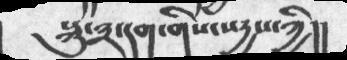སྐུ་༣་དག་གིས་སདྱས་ཀྱི།།
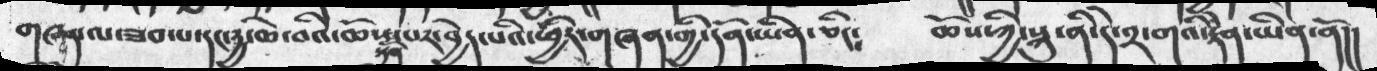གཞན་ལ་ཟབ་པ་དང་དྱ་ཆེ་བའི་ཆོས་སྟོན་པར་བྱེད་པའི་ཕྱིར་གཞན་གྱི་དོན་ཡིན་ཅིང༴   ཆོས་ཀྱི་སྐུ་ནི་དེ་༢་གའི་རྟེན་ཡིན་ནོ།།
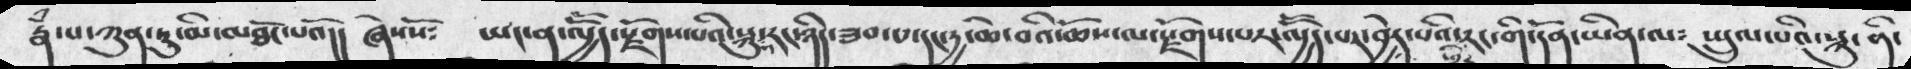རྣཾ་པ་ཀུན་ཏུ་མི་མཐོང་པའོ།།  ཞེསསོ༴  ཡང་ན་ལྱོོད་རྫོགས་པའི་སྐུས་རང་ཉིད་ཟབ་པ་དང་དྱ་ཆེ་བའི་ཆོས་ལ་རྫོགས་པར་ལྱོོད་པར་བྱེད་པའི་ཕྱིར་རང་གི་དོན་ཡིན་ལ༴ སྤྲུལ་པའི་སྐུ་ནི་
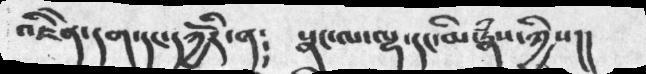འཇིེན་དག་དང་དཀྱོརི་ན༴    སྣང་ལ་ལྷ་དང་མི་རྣཾས་ཀྱིས།།
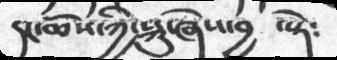དང་ཆོས་ཀྱི་སྐུ་ཞེས་བྱ་  སྟེ༴
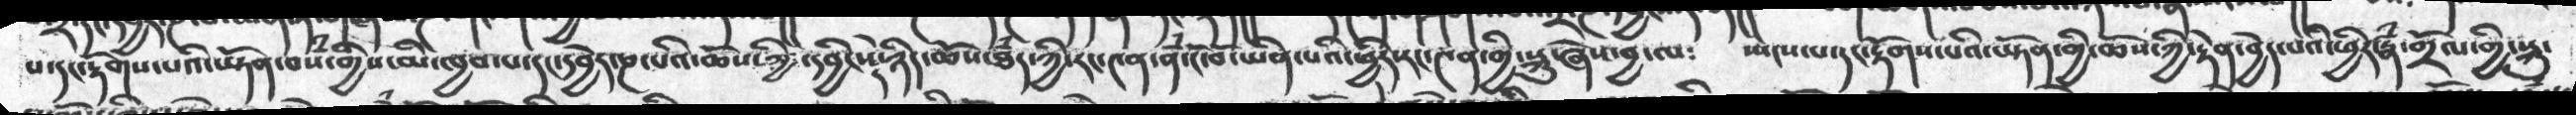པ་དང་རྟོགས་པའི་ཡྟོན་བསཾ་གྱིས་མི་ཁྱབ་པ་དང་དབྱེར་ཎ་པའི་ཆོསཀྱི་དབྱིངས་དེ་ཉིད་ཆོས་ཐཾད་ཀྱི་རང་༤ན་ནཾ་ངོ་བོ་ཡིན་པའི་ཕྱིར་རང་༤ན་གྱི་སྐུ་ཞེས་བྱ་ལ༴  སྤངས་པ་དང་རྟོགས་པའི་ཡྟོན་གྱི་ཆོས་ཀྱི་རྟེན་བྱེད་པའི་ཕྱིར་རྣཾ་གྲོལ་གྱི་སྐུ་
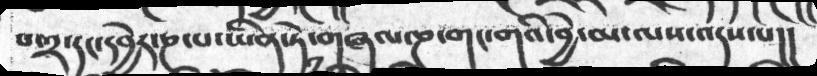པ་༢་དང་དབྱེར་ཎ་པ་ཡིན་ཏེ་གཞལ་ཎ་གང་གའི་བྱེ་མ་ལས་འདས་པ།།
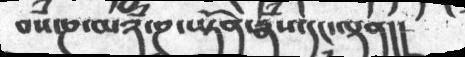བས་ཎ་མཉཾ་ཎ་ཡྟོན་རྣཾས་དང་ལྡན།།
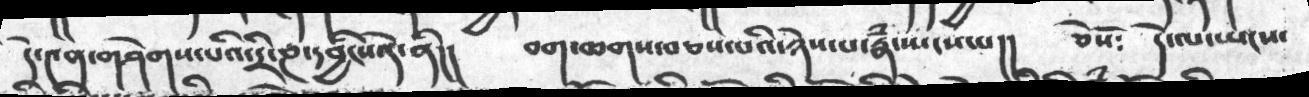དེ་༤ན་གཤེགས་པའི་དྲི་ཎ་དབྱིངས་དོ་ནི།།   བག་ཆགས་བཅས་པའི་ཉེས་པ་རྣཾ་སྤངས་པ།།  ཅེསོ༴   དེ་ལ་ཡངས་
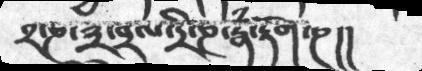༢་ཎ་༣་བྲལ་དྲི་ཎ་རྣཾ་རྟོག་ཎ།།
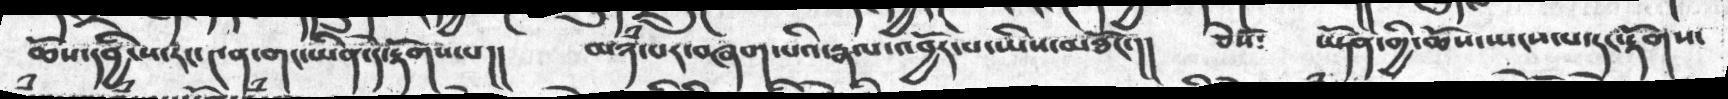ཆོས་དབྱིངས་རང་༤ན་གང་ཡིན་དེ་རྟོགས་པ།།     མཉཾ་པར་བཞག་པའི་རྣལ་འབྱོར་པ་ཡིས་མཐོང་།།    ཅེསོ༴   ཡྟོན་གྱི་ཆོས་སྤངས་པ་དང་རྟོགས་
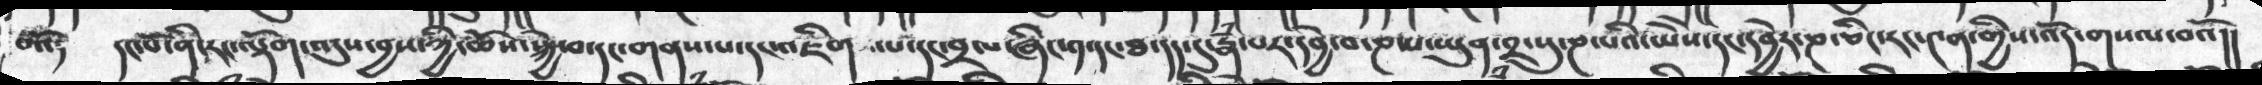བའོ་   དང་པོ་ནི་རང་ལྡོག་འདུས་བྱས་ཀྱི་ཆོས་སྐྱེ་བ་དང་གནས་པ་དང་འཇིག་པ་དང་བྲལ་ཞིང་༡་དང་ཐ་དད་དུ་རྣཾ་པར་དབྱེ་བ་ཎ་པ་ཡུན་༢་སུ་ཎ་པའི་ཡེེས་དང་དབྱེར་ཎ་ཅིང་རང་༤ན་གྱིས་འོད་གསལ་བའོ།།
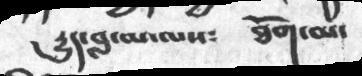དྱུད་བླ་མ་ལས༴   ཐོག་མ་
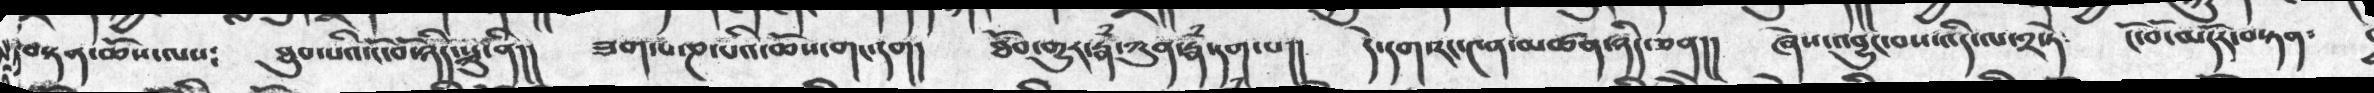བསྟན་ཆོས་ལས༴  ཐུབ་པའི་ངོ་བོ་ཉིད་སྐུ་ནི།།  ཟག་པ་ཎ་པའི་ཆོས་གང་དག།  ཐོབ་གྱུར་རྣཾ་ཀུན་རྣཾ་དག་པ།།  དེ་དག་རང་༤ན་མཚན་ཉིད་ཅན།།  ཞེས་འབྱུང་བས་འདི་ལ་༢་ཏེ༴   ངོ་བོ་མདོར་བསྟན་
